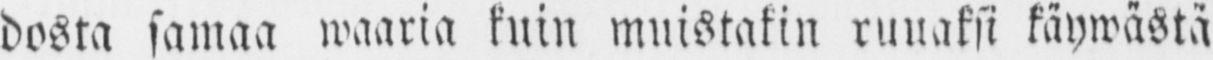dosta samaa waaria kuin muistakin ruuaksi käywästä
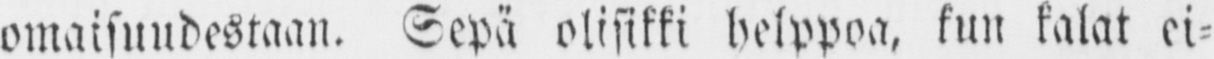omaisuudestaan. Sepä olisikki helppoa, kun kalat ei-
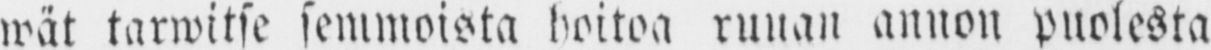wät tarwitse semmoista hoitoa ruuan annon puolesta
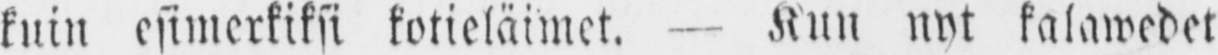kuin esimerkiksi kotieläimet. — Kun nyt kalawedet
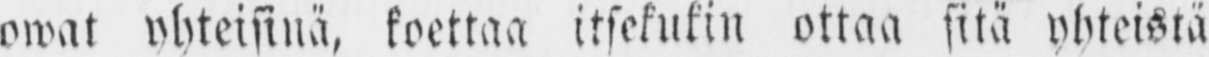owat yhteisinä, koettaa itsekukin ottaa sitä yhteistä
